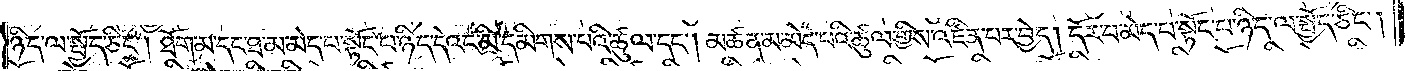ཉིད་ལ་སྤྱོད་ཅིང༌། ཐོག་མ་དང་ཐ་མ་མེད་པ་སྟོང་པ་ཉིད་དེའང་མི་དམིགས་པའི་ཚུལ་དང༌། མཚན་མ་མེད་པའི་ཚུལ་གྱིས་འཛིན་པར་བྱེད། དོར་བ་མེད་པ་སྟོང་པ་ཉིད་ལ་སྤྱོད་ཅིང༌།
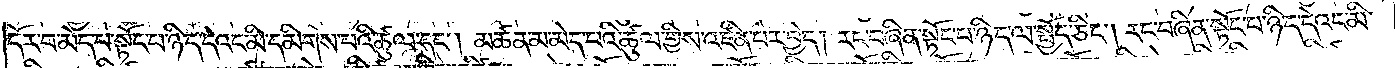དོར་བ་མེད་པ་སྟོང་པ་ཉིད་དེའང་མི་དམིགས་པའི་ཚུལ་དང༌། མཚན་མ་མེད་པའི་ཚུལ་གྱིས་འཛིན་པར་བྱེད། རང་བཞིན་སྟོང་པ་ཉིད་ལ་སྤྱོད་ཅིང༌། རང་བཞིན་སྟོང་པ་ཉིད་དེའང་མི་
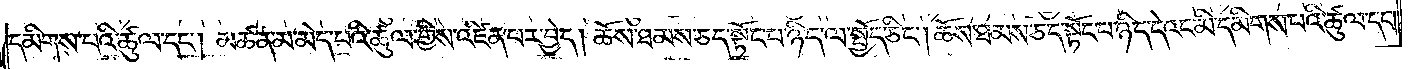དམིགས་པའི་ཚུལ་དང༌། མཚན་མ་མེད་པའི་ཚུལ་གྱིས་འཛིན་པར་བྱེད། ཆོས་ཐམས་ཅད་སྟོང་པ་ཉིད་ལ་སྤྱོད་ཅིང༌། ཆོས་ཐམས་ཅད་སྟོང་པ་ཉིད་དེའང་མི་དམིགས་པའི་ཚུལ་དང༌།
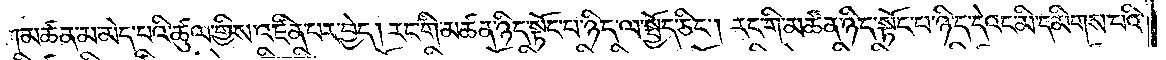མཚན་མ་མེད་པའི་ཚུལ་གྱིས་འཛིན་པར་བྱེད། རང་གི་མཚན་ཉིད་སྟོང་པ་ཉིད་ལ་སྤྱོད་ཅིང༌། རང་གི་མཚན་ཉིད་སྟོང་པ་ཉིད་དེའང་མི་དམིགས་པའི་
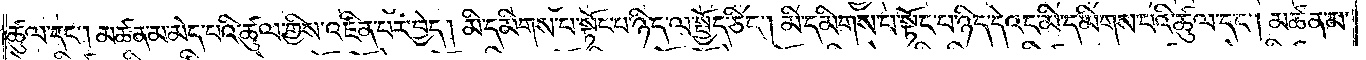ཚུལ་དང༌། མཚན་མ་མེད་པའི་ཚུལ་གྱིས་འཛིན་པར་བྱེད། མི་དམིགས་པ་སྟོང་པ་ཉིད་ལ་སྤྱོད་ཅིང༌། མི་དམིགས་པ་སྟོང་པ་ཉིད་དེའང་མི་དམིགས་པའི་ཚུལ་དང༌། མཚན་མ་
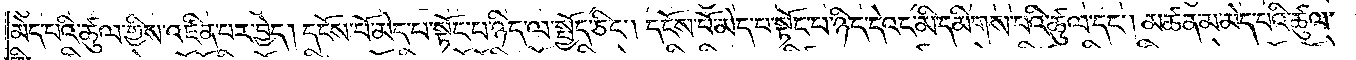མེད་པའི་ཚུལ་གྱིས་འཛིན་པར་བྱེད། དངོས་པོ་མེད་པ་སྟོང་པ་ཉིད་ལ་སྤྱོད་ཅིང༌། དངོས་པོ་མེད་པ་སྟོང་པ་ཉིད་དེའང་མི་དམིགས་པའི་ཚུལ་དང༌། མཚན་མ་མེད་པའི་ཚུལ་
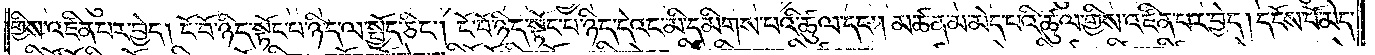གྱིས་འཛིན་པར་བྱེད། ངོ་བོ་ཉིད་སྟོང་པ་ཉིད་ལ་སྤྱོད་ཅིང༌། ངོ་བོ་ཉིད་སྟོང་པ་ཉིད་དེའང་མི་དམིགས་པའི་ཚུལ་དང༌། མཚན་མ་མེད་པའི་ཚུལ་གྱིས་འཛིན་པར་བྱེད། དངོས་པོ་མེད་
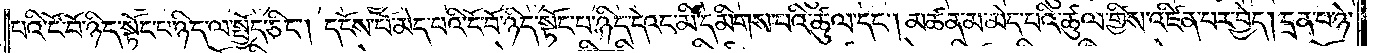པའི་ངོ་བོ་ཉིད་སྟོང་པ་ཉིད་ལ་སྤྱོད་ཅིང༌། དངོས་པོ་མེད་པའི་ངོ་བོ་ཉིད་སྟོང་པ་ཉིད་དེའང་མི་དམིགས་པའི་ཚུལ་དང༌། མཚན་མ་མེད་པའི་ཚུལ་གྱིས་འཛིན་པར་བྱེད། དྲན་པ་ཉེ་
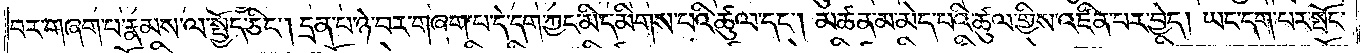བར་གཞག་པ་རྣམས་ལ་སྤྱོད་ཅིང༌། དྲན་པ་ཉེ་བར་གཞག་པ་དེ་དག་ཀྱང་མི་དམིགས་པའི་ཚུལ་དང༌། མཚན་མ་མེད་པའི་ཚུལ་གྱིས་འཛིན་པར་བྱེད། ཡང་དག་པར་སྤོང་
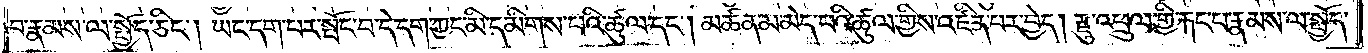བ་རྣམས་ལ་སྤྱོད་ཅིང༌། ཡང་དག་པར་སྤོང་བ་དེ་དག་ཀྱང་མི་དམིགས་པའི་ཚུལ་དང༌། མཚན་མ་མེད་པའི་ཚུལ་གྱིས་འཛིན་པར་བྱེད། རྫུ་འཕྲུལ་གྱི་རྐང་པ་རྣམས་ལ་སྤྱོད་
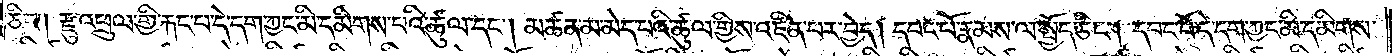ཅིང༌། རྫུ་འཕྲུལ་གྱི་རྐང་པ་དེ་དག་ཀྱང་མི་དམིགས་པའི་ཚུལ་དང༌། མཚན་མ་མེད་པའི་ཚུལ་གྱིས་འཛིན་པར་བྱེད། དབང་པོ་རྣམས་ལ་སྤྱོད་ཅིང༌། དབང་པོ་དེ་དག་ཀྱང་མི་དམིགས་
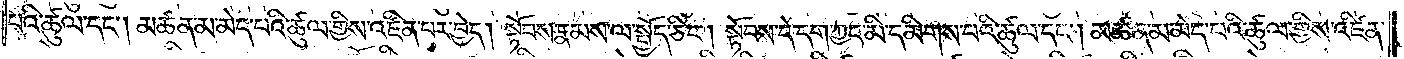པའི་ཚུལ་དང༌། མཚན་མ་མེད་པའི་ཚུལ་གྱིས་འཛིན་པར་བྱེད། སྟོབས་རྣམས་ལ་སྤྱོད་ཅིང༌། སྟོབས་དེ་དག་ཀྱང་མི་དམིགས་པའི་ཚུལ་དང༌། མཚན་མ་མེད་པའི་ཚུལ་གྱིས་འཛིན་
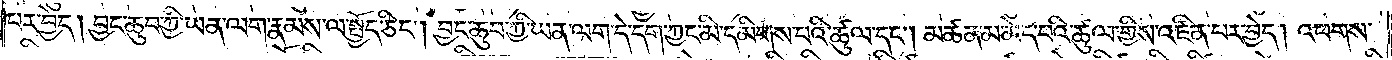པར་བྱེད། བྱང་ཆུབ་ཀྱི་ཡན་ལག་རྣམས་ལ་སྤྱོད་ཅིང༌། བྱང་ཆུབ་ཀྱི་ཡན་ལག་དེ་དག་ཀྱང་མི་དམིགས་པའི་ཚུལ་དང༌། མཚན་མ་མེད་པའི་ཚུལ་གྱིས་འཛིན་པར་བྱེད། འཕགས་
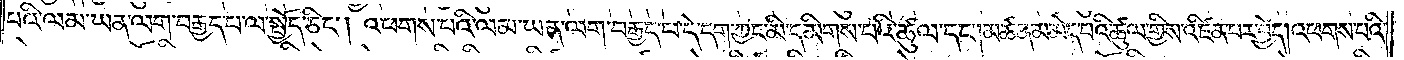པའི་ལམ་ཡན་ལག་བརྒྱད་པ་ལ་སྤྱོད་ཅིང༌། འཕགས་པའི་ལམ་ཡན་ལག་བརྒྱད་པ་དེ་དག་ཀྱང་མི་དམིགས་པའི་ཚུལ་དང༌། མཚན་མ་མེད་བའི་ཚུལ་གྱིས་འཛིན་པར་བྱེད། འཕགས་པའི་
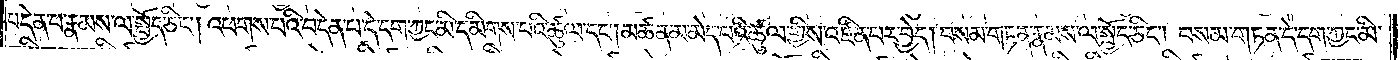བདེན་པ་རྣམས་ལ་སྤྱོད་ཅིང༌། འཕགས་པའི་བདེན་པ་དེ་དག་ཀྱང་མི་དམིགས་པའི་ཚུལ་དང༌། མཚན་མ་མེད་པའི་ཚུལ་གྱིས་འཛིན་པར་བྱེད། བསམ་གཏན་རྣམས་ལ་སྤྱོད་ཅིང༌། བསམ་གཏན་དེ་དག་ཀྱང་མི་
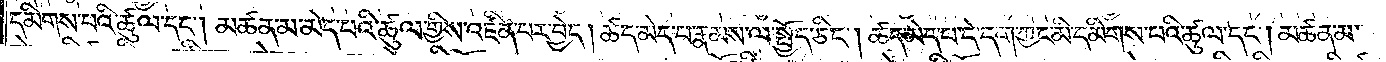དམིགས་པའི་ཚུལ་དང༌། མཚན་མ་མེད་པའི་ཚུལ་གྱིས་འཛིན་པར་བྱེད། ཚད་མེད་པ་རྣམས་ལ་སྤྱོད་ཅིང༌། ཚད་མེད་པ་དེ་དག་ཀྱང་མི་དམིགས་པའི་ཚུལ་དང༌། མཚན་མ་
